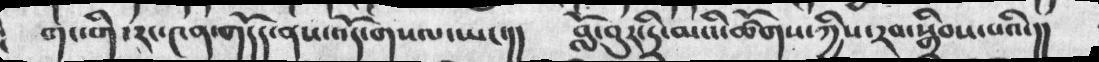གང་གི་རང་༤ན་གདོད་ནས་འོད་གསལ་ཡང་།།  བློ་བུར་དྲི་མའི་ཚོགས་ཀྱིས་རབ་སྒྲིབས་པའི་།།
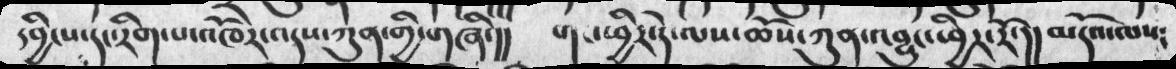དབྱིངས་དང་རིག་པ་འཁོར་འདས་ཀུན་གྱི་གཞི་།།  གང་ཕྱིར་དེ་ལས་ཆོས་ཀུན་འབྱུང་ཕྱིར་རོ་།། མདོའ་ལས༴
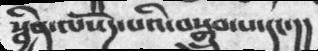སྦྱིན་ལསོཌ་པའི་བསྒྲུབ་པ་དང་།།
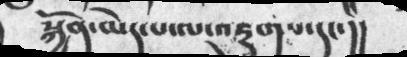སྐྱོན་མེད་པ་ལ་འཇུག་པ་དང་།།
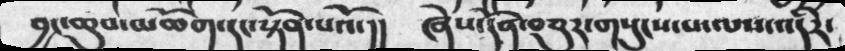བྱང་ཆུབ་མཆོག་དང་སྟོན་པའོ་།།  ཞེས་དོན་བཅུར་གསུངས་པ་ལས་འདིར་
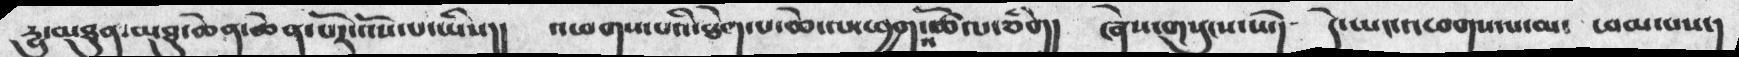རྱུ་མཐུན་མཐུ་ཆེན་ཆེན་པོར་འོས་པ་ཡིས།།     འཕགས་པའི་ཐེག་པ་ཆེ་ལ་ཕྱག་འཚོལ་ཅིག།    ཞེས་གསུངས་སོ་།   དེ་ཡང་འཕགས་པ་མ༴  ཕམ་པས་།
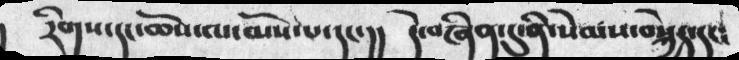རིགས་དང་ཆོས་ལ་མོས་པ་དང་།།  དེ་བཞིན་དུ་ནི་སེམས་བསྐྱེད་དང༴
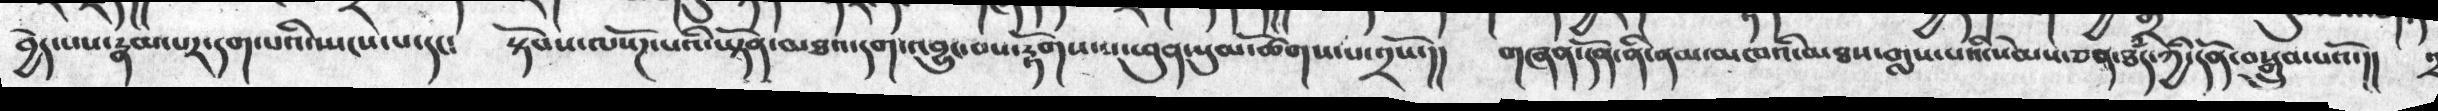བྱེད་པས་རྣམ་པར་དག་པའི་ཡངས་པ་དང༴  སྟོབས་ལསོཌ་པའི་ཡྟོན་མཐའ་དག་འབྱུང་བས་རྟོགས་པ་ཕུན་སུམ་ཚོགས་པ་༢སོ་།།  གཞན་དོན་ནི་ནམ་མཁའི་མཐས་གླས་པའི་སེམས་ཅན་ཐཾད་ཀྱི་དོན་བསྒྲུབ་པའོ་།།
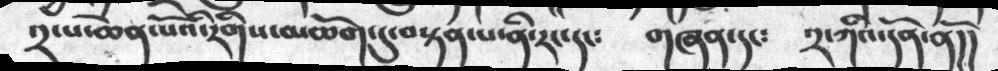༢་པ་ཆེན་པོའི་རིགིས་མཆོག་དུ་བསྟན་པ་ནི་རང་དང་༴  གཞན་དང༴  ༢་ཀའི་དོན་ནོ།།
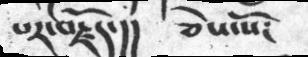པར་བརྗོད་།།  ཅེས་སོ༴
